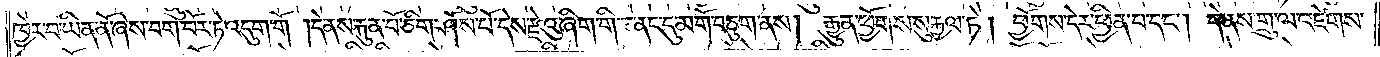ཁྱེར་བ་ཡིན་ནོ་ཞེས་བག་བོར་ཏེ་འདུག་གོ །དེ་ནས་རྐུན་པོ་ཅིག་ཤོས་པོ་དེས་རྫེའུ་ཞིག་གི་ནང་དུ་མགོ་བཅུག་ནས། རྒྱུན་ཕྱོགས་སུ་རྐྱལ་ཏེ། ཕྱོགས་དེར་ཕྱིན་པ་དང༌། དེ་ནས་གྲུ་ལ་འཛེགས་
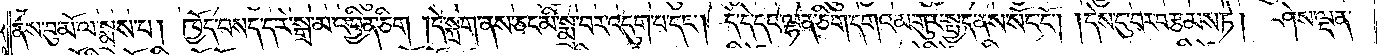ནས་བུ་མོ་ལ་སྨྲས་པ། ཁྱོད་བསད་ད་རེ་སྒྲ་མ་འབྱིན་ཅིག །དེ་སྐྲག་ནས་ཅང་མི་སྨྲ་བར་འདུག་པ་དང༌། དེ་དེ་དང་ལྷན་ཅིག་དགའ་མགུར་སྤྱད་ནས་སོང་ངོ༌། །དེས་དུ་བར་བརྩམས་ཏེ། ཤེས་ལྡན་
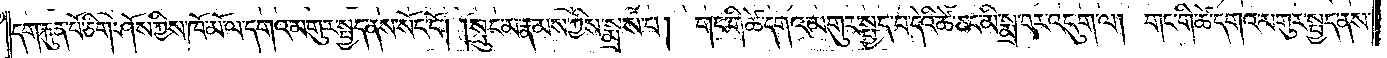དག་རྐུན་པོ་ཅིག་ཤོས་ཀྱིས་ཁོ་མོ་ལ་དགའ་མགུར་སྤྱད་ནས་སོང་ངོ༌། །སྲུང་མ་རྣམས་ཀྱིས་སྨྲས་པ། གང་གི་ཚེ་དགའ་མགུར་སྤྱད་པ་དེའི་ཚེ་ཅང་མི་སྨྲ་བར་འདུག་ལ། གང་གི་ཚེ་དགའ་མགུར་སྤྱད་ནས་
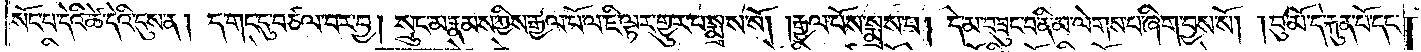སོང་པ་དེའི་ཚེ་དེའི་དུས་ན། ད་གང་དུ་བཙལ་བར་བྱ། སྲུང་མ་རྣམས་ཀྱིས་རྒྱལ་པོ་ལ་ཇི་ལྟར་གྱུར་པ་སྨྲས་སོ། །རྒྱལ་པོས་སྨྲས་པ། དེ་མ་བཟུང་བ་ནི་མ་ལེགས་པ་ཞིག་བྱས་སོ། །བུ་མོ་དེ་རྐུན་པོ་དང་
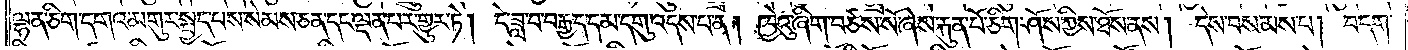ལྷན་ཅིག་དགའ་མགུར་སྤྱད་པས་སེམས་ཅན་དང་ལྡན་པར་གྱུར་ཏེ། དེ་ཟླ་བ་བརྒྱད་དམ་དགུ་འདས་པ་ན། ཁྱེའུ་ཞིག་བཙས་སོ་ཞེས་རྐུན་པོ་ཅིག་ཤོས་ཀྱིས་ཐོས་ནས། དེས་བསམས་པ། བདག་
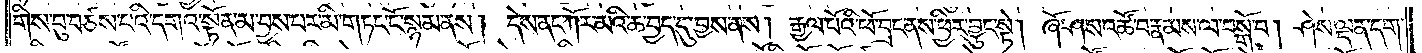གིས་བུ་བཙས་པའི་དགའ་སྟོན་མ་བྱས་པར་མི་གཏང་ངོ་སྙམ་ནས། དེས་ནང་ཀོར་མའི་ཆ་བྱད་དུ་བྱས་ནས། རྒྱལ་པོའི་ཕོ་བྲང་ནས་ཕྱིར་བྱུང་སྟེ། ཞོ་ཤས་འཚོ་བ་རྣམས་ལ་བསྒོ་བ། ཤེས་ལྡན་དག་
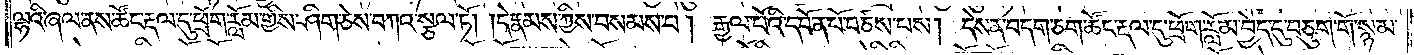ལྷའི་ཞལ་ནས་ཚོང་རྡལ་དུ་ཕྲོག་རློམ་གྱིས་ཤིག་ཅེས་བཀའ་སྩལ་ཏོ། །དེ་རྣམས་ཀྱིས་བསམས་པ། རྒྱལ་པོའི་དབོན་པོ་བཙས་པས། དེས་ན་བདག་ཅག་ཚོང་རྡལ་དུ་ཕྲོག་རློམ་བྱེད་དུ་བཅུག་གོ་སྙམ་
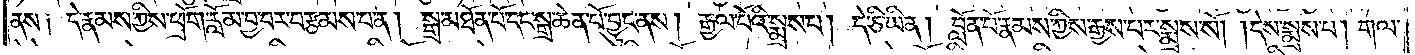ནས༑ དེ་རྣམས་ཀྱིས་ཕྲོག་རློམ་བྱ་བར་བརྩམས་པ་ན། སྒྲ་མཐོན་པོ་དང་སྒྲ་ཆེན་པོ་བྱུང་ནས། རྒྱལ་པོའི་སྨྲས་པ། དེ་ཅི་ཡིན། བློན་པོ་རྣམས་ཀྱིས་རྒྱས་པར་སྨྲས་སོ། །དེས་སྨྲས་པ། གལ་
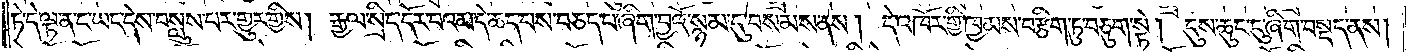ཏེ་དེ་ལྟ་ན་ང་ཡང་དེས་བསླུས་པར་གྱུར་གྱིས། རྒྱལ་སྲིད་དོར་བའམ་དེ་ཆད་པས་བཅད་པ་ཞིག་བྱའོ་སྙམ་དུ་བསམས་ནས། དེ་འཁོར་གྱི་ཁྱམས་བརྩིག་ཏུ་བཅུག་སྟེ། དུས་ཆུང་ངུ་ཞིག་བསྡད་ནས།
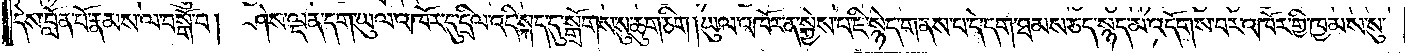དེས་བློན་པོ་རྣམས་ལ་བསྒོ་བ། ཤེས་ལྡན་དག་ཡུལ་འཁོར་དུ་དྲིལ་འདི་སྐད་དུ་སྒྲོགས་སུ་ཆུག་ཅིག །ཡུལ་འཁོར་ན་སྐྱེས་པ་ཇི་སྙེད་གནས་པ་དེ་དག་ཐམས་ཅད་སྙད་མ་འདོགས་བར་འཁོར་གྱི་ཁྱམས་སུ་
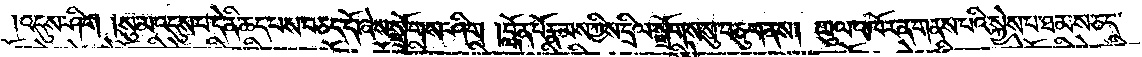འདུས་ཤིག །སུ་མ་འདུས་པ་དེ་ནི་ཆད་པས་བཅད་དོ་ཞེས་སྒྲོགས་ཤིག །བློན་པོ་རྣམས་ཀྱིས་དྲིལ་སྒྲོགས་སུ་བཅུག་ནས། ཡུལ་འཁོར་ན་གནས་པའི་སྐྱེས་པ་ཐམས་ཅད་
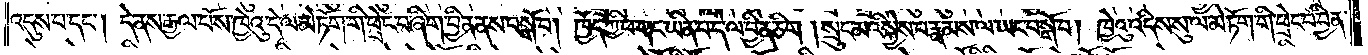འདུས་པ་དང༌། དེ་ནས་རྒྱལ་པོས་ཁྱེའུ་དེ་ལ་མེ་ཏོག་གི་ཕྲེང་བ་ཞིག་བྱིན་ནས་བསྒོ་བ། ཁྱོད་ཀྱི་ཕ་གང་ཡིན་པ་དེ་ལ་བྱིན་ཅིག །སྲུང་མའི་སྐྱེས་པ་རྣམས་ལ་ཡང་བསྒོ་བ། ཁྱེའུ་འདིས་སུ་ལ་མེ་ཏོག་གི་ཕྲེང་བ་བྱིན་
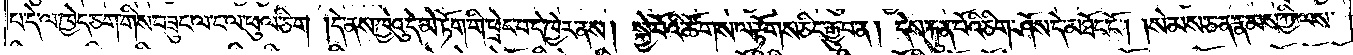པ་དེ་ལ་ཁྱེད་ཅག་གིས་བཟུང་ལ་ང་ལ་ཕུལ་ཅིག །དེ་ནས་ཁྱེའུ་དེ་མེ་ཏོག་གི་ཕྲེང་བ་དེ་ཁྱེར་ནས། སྐྱེ་བོའི་ཚོགས་ལ་རྟོགས་ཅིང་རྒྱུ་བ་ན། དེས་རྐུན་པོའི་ཅིག་ཤོས་དེ་མཐོང་ངོ༌། །སེམས་ཅན་རྣམས་ཀྱི་ལས་
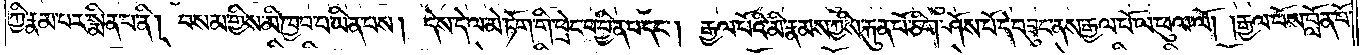ཀྱི་རྣམ་པར་སྨིན་པ་ནི། བསམ་གྱིས་མི་ཁྱབ་པ་ཡིན་པས། དེས་དེ་ལ་མེ་ཏོག་གི་ཕྲེང་བ་བྱིན་པ་དང༌། རྒྱལ་པོའི་མི་རྣམས་ཀྱིས་རྐུན་པོ་ཅིག་ཤོས་པོ་དེ་བཟུང་ནས་རྒྱལ་པོ་ལ་ཕུལ་ལོ། །རྒྱལ་པོས་བློན་པོ་
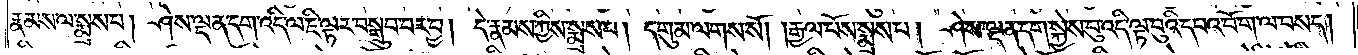རྣམས་ལ་སྨྲས་པ། ཤེས་ལྡན་དག་འདི་ལ་ཇི་ལྟར་བསྒྲུབ་པར་བྱ། དེ་རྣམས་ཀྱིས་སྨྲས་པ། དགུམ་ལགས་སོ། །རྒྱལ་པོས་སྨྲས་པ། ཤེས་ལྡན་དག་སྐྱེས་བུ་འདི་ལྟ་བུའི་དཔའ་བོ་ག་ལ་བསད།
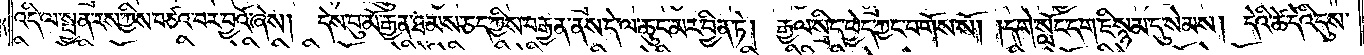འདི་ལ་སྤྱན་རས་ཀྱིས་བཙའ་བར་བྱའོ་ཞེས། དེས་བུ་མོ་རྒྱན་ཐམས་ཅད་ཀྱིས་བརྒྱན་ནས་དེ་ལ་ཆུང་མར་བྱིན་ཏེ། རྒྱལ་སྲིད་ཕྱེད་ཀྱང་བགོས་སོ། །དགེ་སློང་དག་ཇི་སྙམ་དུ་སེམས། །དེའི་ཚེ་དེའི་དུས་
